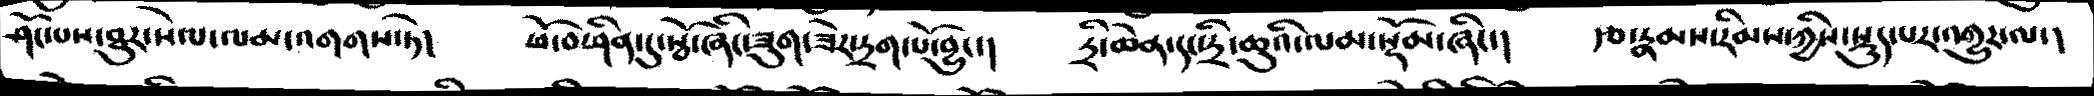ཤོང་པས་ཐུར་སེལ་ལམ་འགགས་ཏེ།   ཕོ་བ་ཤིན་དུ་སྦོ་ཞིང་ཟུག་ཟེར་དྲག་པོ་བྱུང་།   དྲི་ཆེན་དང་དྲི་ཆུའི་ལམ་སྡོམ་ཞིང་།   རྩ་རྣམས་རིམས་ཀྱིས་སྡུད་པར་འགྱུར་ལ་།
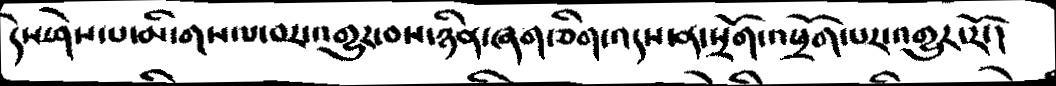དེས་ཤེས་པ་མི་གསལ་བར་འགྱུར་བས་ཉིན་ཞག་ཅིག་འདས་ན་སྲོག་འཕྲོག་པར་འགྱུར་རོ་།
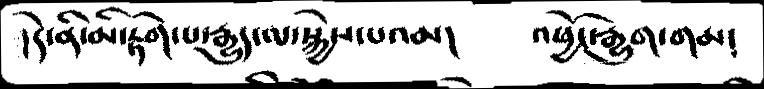།དེ་ནི་མི་རྟོག་པ་རྒྱུད་ལ་སྐྱེས་པའམ།   འཕྱོ་རྒྱུག་གམ༴
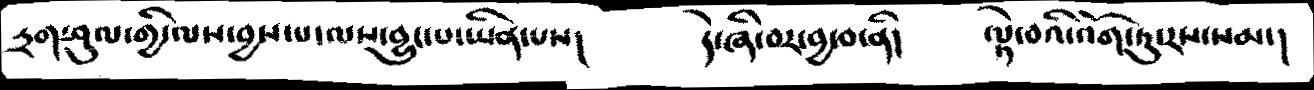དྲག་ཤུལ་གྱི་ལས་བྱས་པ་ལས་བྱུང་པ་ཡིན་པས།   དེ་ཞི་བར་བྱ་བ་ནི།   ལྟེ་བའི་འོག་ཏུ་རས་སམ་།
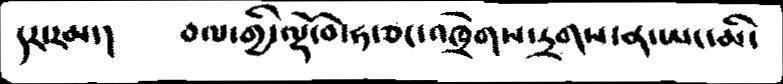དར་རམ་།   བལ་གྱི་ལྷོ་བ་ཧ་ཅང་འཁྲེགས་དྲགས་ན་ཡང་མི་
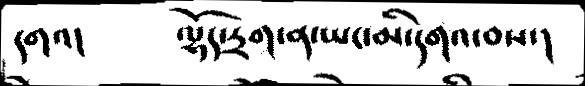དགའ།   ལྷོད་དྲག་ན་ཡང་མི་དགའ་བས་།
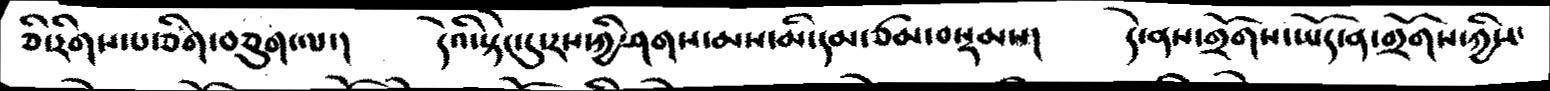ཅི་རིགས་པ་ཅིག་བཅུག་ལ་།   དེའི་སྟེང་དུ་རས་ཀྱི་ཤགས་མས་མི་དམ་ཙམ་བསྡམས།   དེ་ནས་གྲོགས་ཡོད་ན་གྲོགས་ཀྱིས་
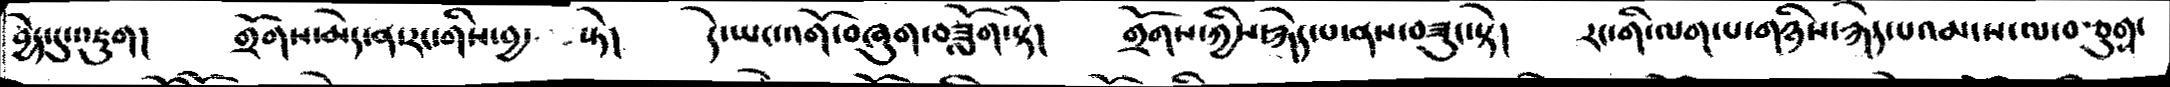བྱེད་དུ་འཇུག།   གྲོགས་མེད་ན་རང་གིས་བྱ་  སྟེ།    དེ་ཡང་འགོ་བཞུག་བཟློག་སྟེ།   གྲོགས་ཀྱིས་རྐེད་པ་ནས་བཟུང་སྟེ།   རང་གི་ལག་པ་གཉིས་རྐེད་པའམ་ས་ལ་བཙུགས་
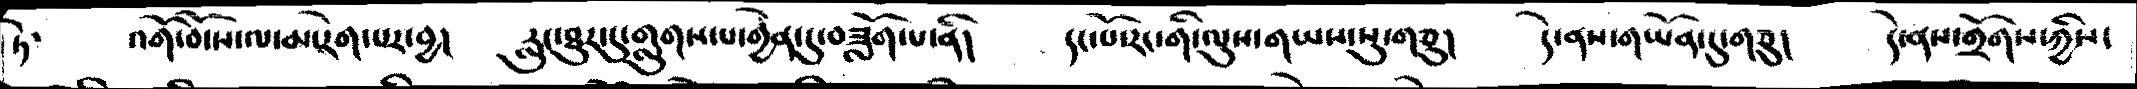ཏེ་    འགོ་བོ་ས་ལ་མ་རེག་པར་བྱ།   རླུང་ཐུར་དུ་གླུགས་པ་གྱེན་དུ་བཟློག་པ་ནི།   དང་པོ་རང་གི་ལུས་གཡས་སུ་གཅུ།   དེ་ནས་གཡོན་དུ་གཅུ།   དེ་ནས་གྲོགས་ཀྱིས་
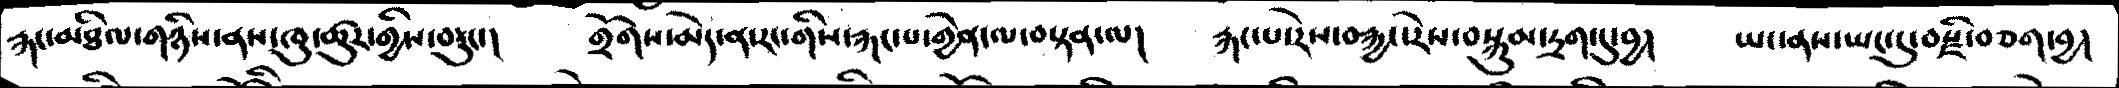རྐང་མཐིལ་གཉིས་ནས་ཁུ་ཚུར་གྱིས་བརྡུང་།   གྲོགས་མེད་ན་རང་གིས་རྐང་པ་གྱེན་ལ་བསྟན་ལ།   རྐང་པ་རེས་བརྐྱང་རེས་བསྐུམ་དྲག་དུ་བྱ།   ཡང་ནས་ཡང་དུ་བརྫི་བཅག་བྱ།
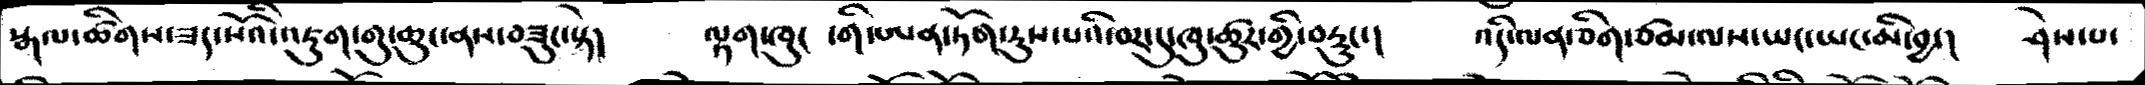སྒལ་ཚིགས་ཟད་སོའི་འཇུག་གུ་ཆུང་ནས་བཟུང་སྟེ།   ལྟག་ཁུང་གི་ཨན་ཏོག་རུས་པའི་བར་དུ་ཁུ་ཚུར་གྱི་བརྡུང་།   འདི་ལན་ཅིག་ཙམ་ལས་ཡང་ཡང་མི་བྱ་།   ཤེས་པ་
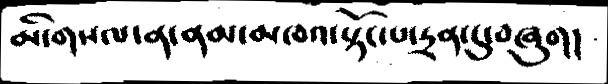མི་གསལ་ན་ནམ་མཁའ་སྟོང་པ་དྲན་དུ་བཞུག།
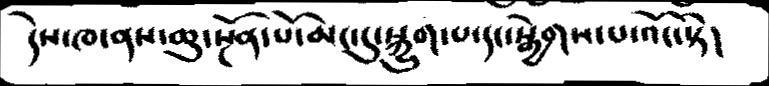དེས་ཁ་ནས་ཆུ་སྔོན་པོ་མང་དུ་སྐྱུག་པ་དང་སྒྱེགས་པ་འོང་སྟེ།
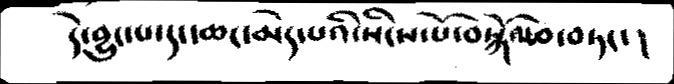དེ་བྱུང་པ་དང་ཆང་མེད་པའི་སིངས་པོ་བསྐོལ་བ་བཏང་།
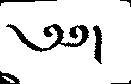༄༅།
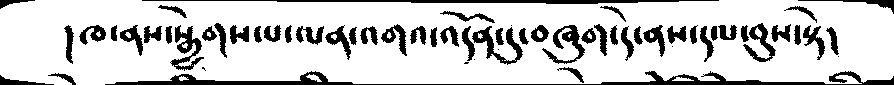།ཁ་ནས་སྒྱེགས་པ་ལན་འགའ་འདོན་དུ་བཞུག་དེ་ནས་དལ་བུས་སྟེ།
